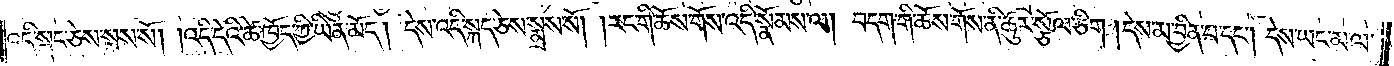འདི་སྐད་ཅེས་སྨྲས་སོ། །འདི་དེའི་ཚེ་ཁྱོད་ཀྱི་ཡིན་མོད། དེས་འདི་སྐད་ཅེས་སྨྲས་སོ། །རང་གི་ཆོས་གོས་འདི་སྣོམས་ལ། བདག་གི་ཆོས་གོས་ནི་ཚུར་སྩོལ་ཅིག །དེས་མ་བྱིན་པ་དང༌། དེས་ཡང་མ་ལ་
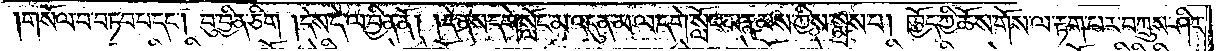གསོལ་བ་བཏབ་པ་དང༌། བུ་བྱིན་ཅིག །དེས་དེ་ལ་བྱིན་ནོ། །དེ་ནས་དགེ་སློང་མ་འདུན་མ་ལ་དགེ་སློང་མ་རྣམས་ཀྱིས་སྨྲས་པ། ཁྱོད་ཀྱི་ཆོས་གོས་ལ་རྟག་པར་བཀྲུས་ཤིང་
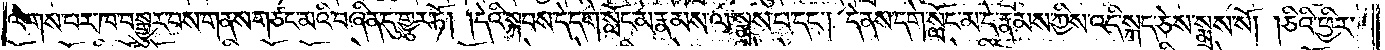ལེགས་པར་ཁ་བསྒྱུར་བས་གནས་གཙང་མའི་བཞིན་དུ་གྱུར་ཏོ། །དེའི་སྐབས་དེ་དགེ་སློང་མ་རྣམས་ལ་སྨྲས་པ་དང༌། དེ་ནས་དགེ་སློང་མ་དེ་རྣམས་ཀྱིས་འདི་སྐད་ཅེས་སྨྲས་སོ། །ཅིའི་ཕྱིར་
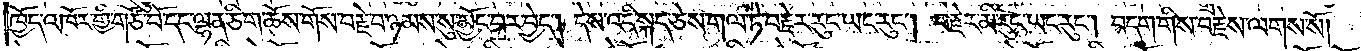ཁྱོད་འཁོར་གྱི་གཙོ་བོ་དང་ལྷན་ཅིག་ཆོས་གོས་བརྗེ་བ་ཉམས་སུ་མྱོང་བར་བྱེད། དེས་འདི་སྐད་ཅེས་གལ་ཏེ་བརྗེར་རུང་ཡང་རུང༌། བརྗེར་མི་རུང་ཡང་རུང༌། བདག་གིས་བརྗེས་ལགས་སོ།
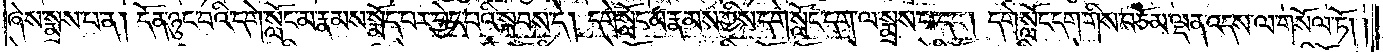ཞེས་སྨྲས་པ་ན། དོན་ཉུང་བའི་དགེ་སློང་མ་རྣམས་སྨོད་པར་བྱེད་པའི་སྐབས་དེ། དགེ་སློང་མ་རྣམས་ཀྱིས་དགེ་སློང་དག་ལ་སྨྲས་པ་དང༌། དགེ་སློང་དག་གིས་བཅོམ་ལྡན་འདས་ལ་གསོལ་ཏོ། །
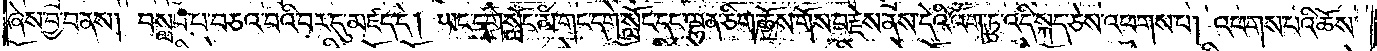ཞེས་བྱ་བ་ནས། བསླབ་པ་བཅའ་བའི་བར་དུ་མཛད་དེ། ཡང་དགེ་སློང་མ་གང་དགེ་སློང་དང་ལྷན་ཅིག་ཆོས་གོས་བརྗེས་ནས་དེའི་འོག་ཏུ་འདི་སྐད་ཅེས་འཕགས་པ། འཕགས་པའི་ཆོས་
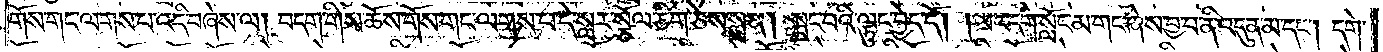གོས་གང་ལགས་པ་འདི་བཞེས་ལ། བདག་གིས་ཆོས་གོས་གང་ལགས་པ་དེ་སླར་སྩོལ་ཅིག་ཅེས་སྨྲ་ན། སྤང་བའི་ལྟུང་བྱེད་དོ། །ཡང་དགེ་སློང་མ་གང་ཞེས་བྱ་བ་ནི་འདུན་མ་དང༌། དགེ་
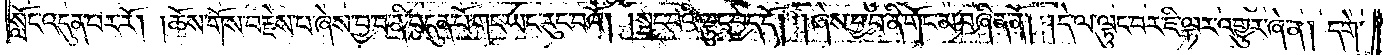སློང་འདུན་པར་རོ། །ཆོས་གོས་བརྗེས་པ་ཞེས་བྱ་བ་ནི་བདུན་པོ་གང་ཡང་རུང་བའོ། །སྤང་བའི་ལྟུང་བྱེད་དོ། །ཞེས་བྱ་བ་ནི་གོང་མ་བཞིན་ནོ། །དེ་ལ་ལྟུང་བར་ཇི་ལྟར་འགྱུར་ཞེ་ན། དགེ་
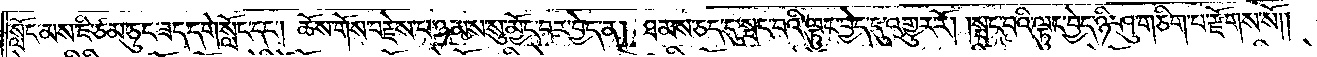སློང་མས་ཇི་ཙམ་ཅུང་ཟད་དགེ་སློང་དང༌། ཆོས་གོས་བརྗེས་པ་ཉམས་སུ་མྱོང་བར་བྱེད་ན། ཐམས་ཅད་དུ་སྤང་བའི་ལྟུང་བྱེད་དུ་འགྱུར་རོ། །སྤང་བའི་ལྟུང་བྱེད་ཉི་ཤུ་གཅིག་པ་རྫོགས་སོ༎
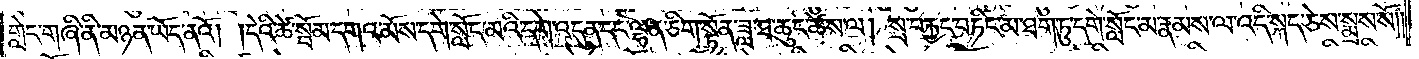གླེང་གཞི་ནི་མཉན་ཡོད་ནའོ། །དེའི་ཚེ་སྦོམ་དགའ་མོས་དགེ་སློང་མའི་དགེ་འདུན་དང་ལྷན་ཅིག་སྟོན་ཟླ་ཐ་ཆུང་ཚེས་ལ། སྲ་བརྐྱང་བཏིང་མ་ཐག་ཏུ་དགེ་སློང་མ་རྣམས་ལ་འདི་སྐད་ཅེས་སྨྲས་སོ༎
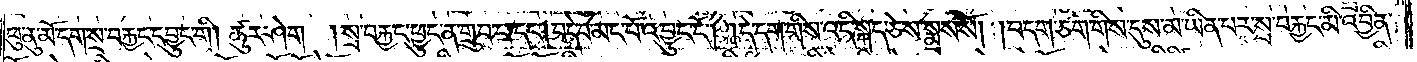ཕུ་ནུ་མོ་དག་སྲ་བརྐྱང་དབྱུང་གི །ཚུར་ཤོག །སྲ་བརྐྱང་ཕྱུང་ན་གྲུབ་པ་དང༌། བདེ་བ་མང་པོ་འབྱུང་ངོ༌། །དེ་དག་གིས་འདི་སྐད་ཅེས་སྨྲས་སོ། །བདག་ཅག་གིས་དུས་མ་ཡིན་པར་སྲ་བརྐྱང་མི་འབྱིན་
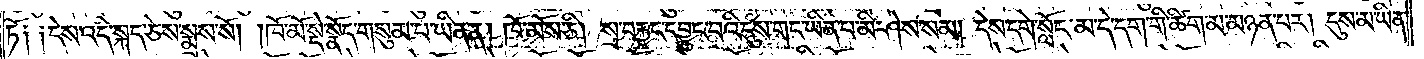ཏོ༑ ༑དེས་འདི་སྐད་ཅེས་སྨྲས་སོ། །ཁོ་མོ་སྡེ་སྣོད་གསུམ་པ་ཡིན་ན། ཁོ་མོས་ཅི། སྲ་བརྐྱང་དབྱུང་བའི་དུས་གང་ཡིན་པ་མི་ཤེས་སམ། དེས་དགེ་སློང་མ་དེ་དག་གི་ཚིག་མ་མཉན་པར། དུས་མ་ཡིན་
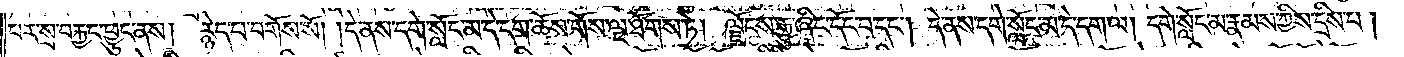པར་སྲ་བརྐྱང་ཕྱུང་ནས། རྙེད་པ་བགོས་སོ། །དེ་ནས་དགེ་སློང་མ་དེ་དག་ཆོས་གོས་ལྔ་ཐོགས་ཏེ། ལྗོངས་རྒྱུ་ཞིང་དོང་བ་དང༌། དེ་ནས་དགེ་སློང་མ་དེ་དག་ལ། དགེ་སློང་མ་རྣམས་ཀྱིས་དྲིས་པ།
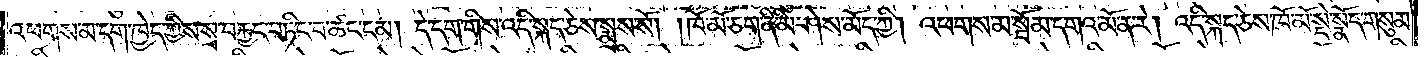འཕགས་མ་དག་ཁྱེད་ཀྱིས་སྲ་བརྐྱང་བཏིང་བ་ཚང་ངམ། དེ་དག་གིས་འདི་སྐད་ཅེས་སྨྲས་སོ། །ཁོ་མོ་ཅག་ནི་མི་ཤེས་མོད་ཀྱི། འཕགས་མ་སྦོམ་དགའ་མོ་ན་རེ། འདི་སྐད་ཅེས་ཁོ་མོ་སྡེ་སྣོད་གསུམ་
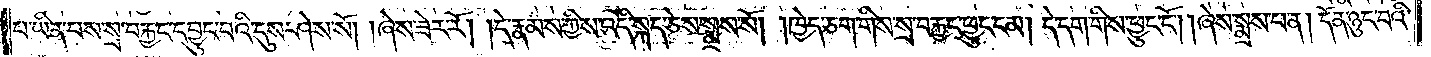བ་ཡིན་པས་སྲ་བརྐྱང་དབྱུང་བའི་དུས་ཤེས་སོ། །ཞེས་ཟེར་རོ། །དེ་རྣམས་ཀྱིས་འདི་སྐད་ཅེས་སྨྲས་སོ། །ཁྱེད་ཅག་གིས་སྲ་བརྐྱང་ཕྱུང་ངམ། དེ་དག་གིས་ཕྱུང་ངོ༌། །ཞེས་སྨྲས་པ་ན། དོན་ཉུང་བའི་
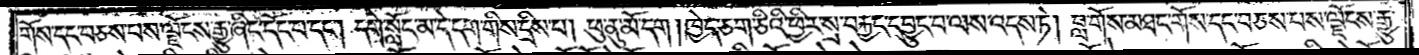གོས་དང་བཅས་པས་ལྗོངས་རྒྱུ་ཞིང་དོང་པ་དང༌། དགེ་སློང་མ་དེ་དག་གིས་དྲིས་པ། ཕུ་ནུ་མོ་དག །ཁྱེད་ཅག་ཅིའི་ཕྱིར་སྲ་བརྐྱང་དབྱུང་བ་ལས་འདས་ཏེ། བློ་གོས་མཐང་གོས་དང་བཅས་པས་ལྗོངས་རྒྱུ་
